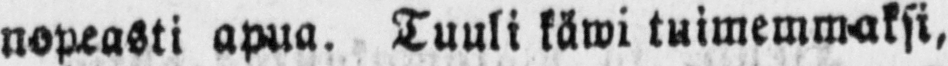nopeasti apua. Tuuli käwi tuimemmaksi,
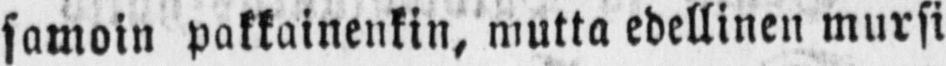samoin pakkainenkin, mutta edellinen mursi
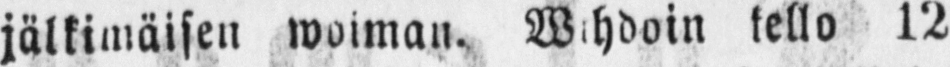jälkimäisen woiman. Wihdoin kello 12
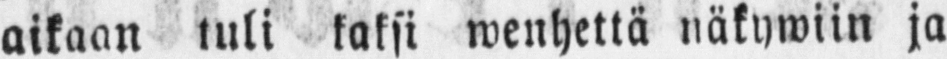aikaan tuli kaksi wenhettä näkywiin ja
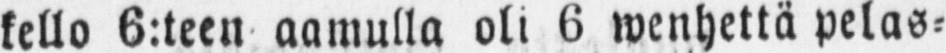kello 6:teen aamulla oli 6 wenhettä pelas-
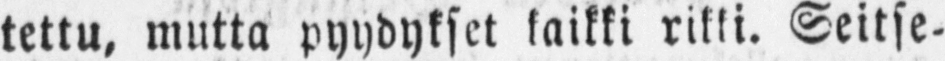tettu, mutta pyydykset kaitti rikki. Seitse-
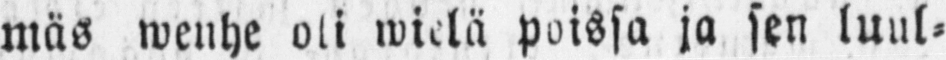mäs wenhe oli wielä poissa ja sen luul-
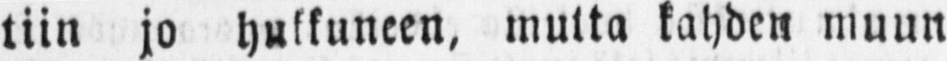tiin jo hukkuneen, mutta kahden muun
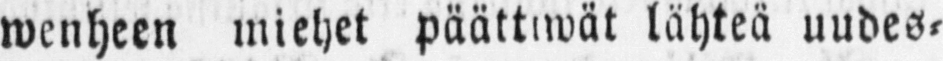wenheen miehet päättwät lähteä uudes-
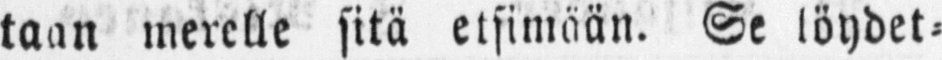taan merelle sitä etsimään. Se löydet-
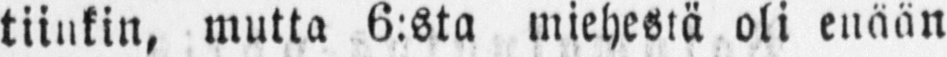tiinkin, mutta 6:sta miehestä oli enään
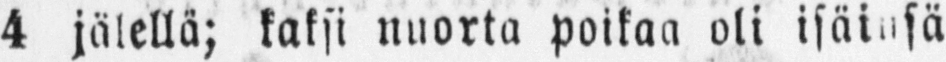4 jälellä; kaksi nuorta poikaa oli isäinsä
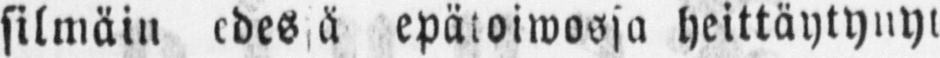silmäin edessä epätoiwossa heittäytynyt
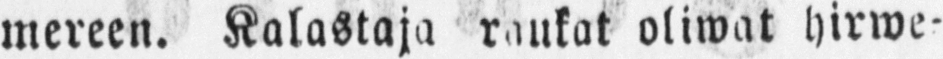mereen. Kalastaja raukat oliwat hirwe-
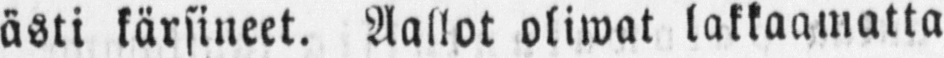ästi kärsineet. Aallot oliwat lakkaamatta
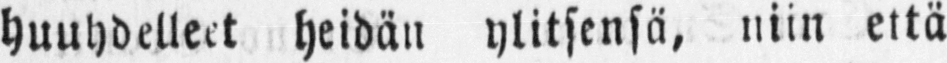huuhdelleet heidän ylitsensä, niin että
